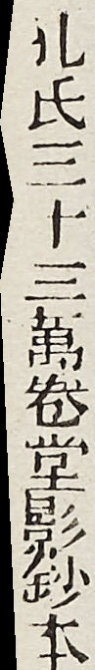孔氏三十三萬卷堂影鈔本
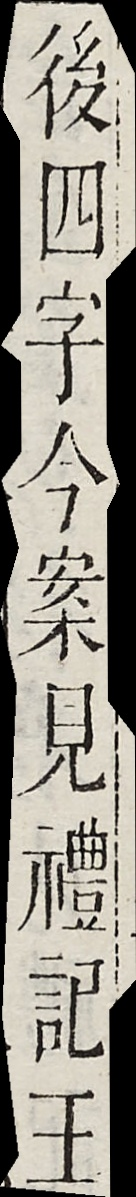後四字今案見禮記王
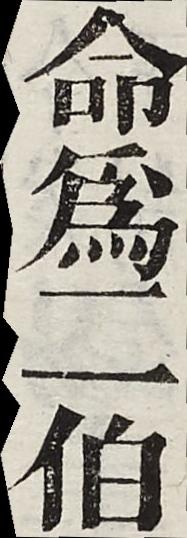命為二伯
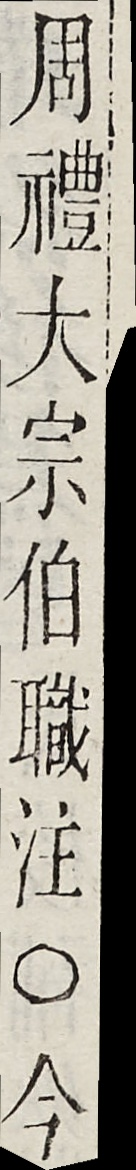周禮大宗伯職注○今
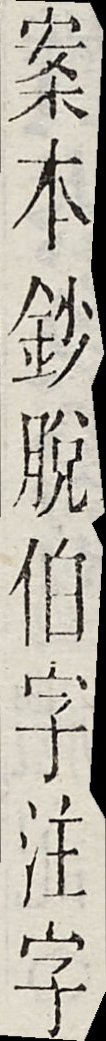案本鈔脫伯字注字
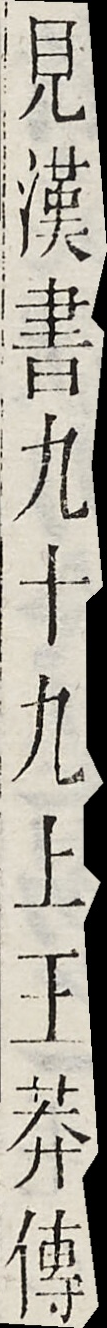見漢書九十九上王莽傳
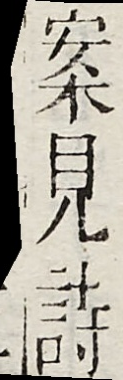案見詩
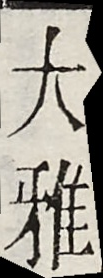大雅
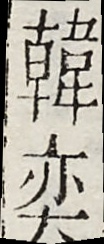韓奕
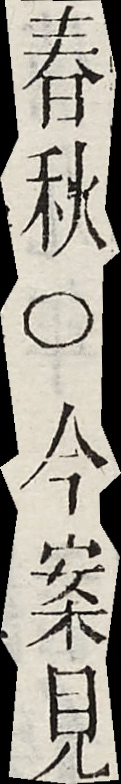春秋○今案見
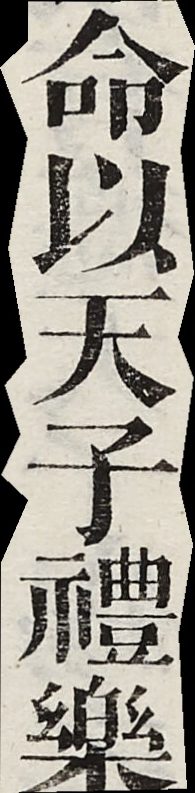命以天子禮樂
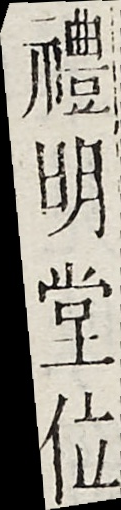禮明堂位
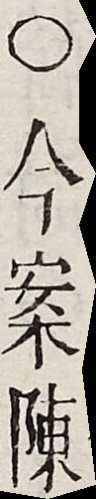○今案陳
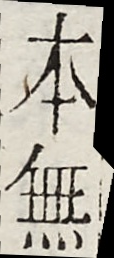本無
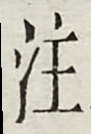注
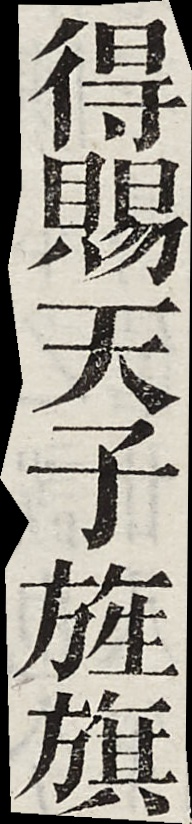得賜天子旌旗
